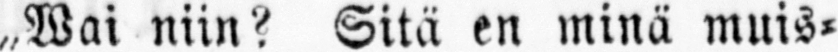„Wai niin? Sitä en minä muis-
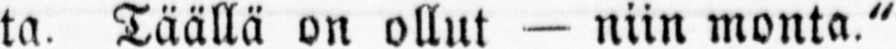ta. Täällä on ollut — niin monta."
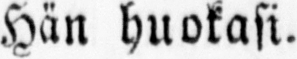Hän huokasi.
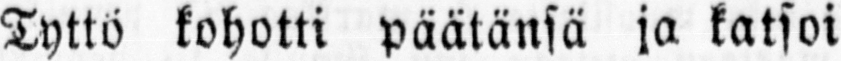Tyttö kohotti päätänsä ja katsoi
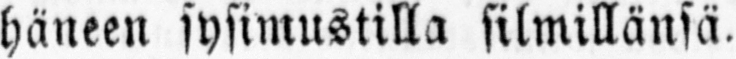häneen sysimustilla silmillänsä.
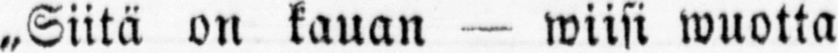„Siitä on kauan — wiisi wuotta
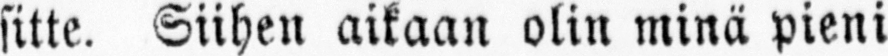sitte. Siihen aikaan olin minä pieni
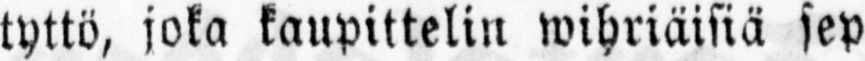tyttö, joka kaupittelin wihriäisiä sep-
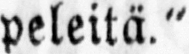peleitä."
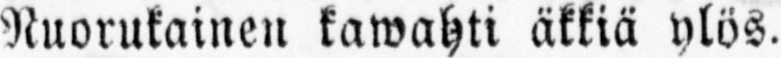Nuorukainen kawahti äkkiä ylös.
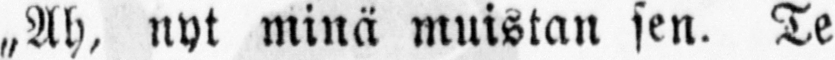„Ah, nyt minä muistan sen. Te
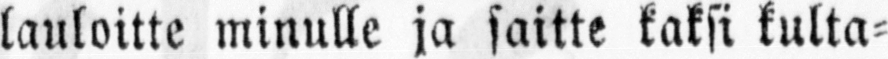lauloitte minulle ja saitte kaksi kulta-
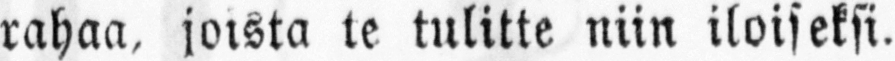rahaa, joista te tulitte niin iloiseksi.
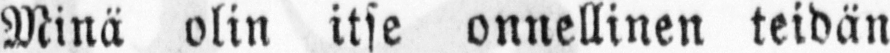Minä olin itse onnellinen teidän
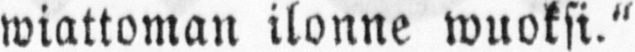wiattoman ilonne wuoksi."
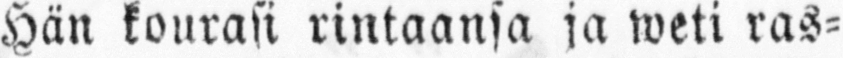Hän kourasi rintaansa ja weti ras-
